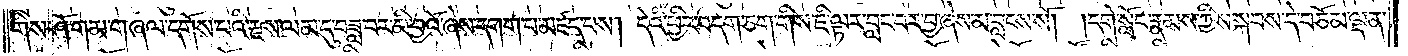གིས་ཤོ་གམ་གཞལ་དགོས་པའི་རྫས་ལམ་དུ་བཟླ་བར་མི་བྱའོ་ཞེས་དགག་པ་མཛད་པས། དེའི་ཕྱིར་བདག་ཅག་གིས་ཇི་ལྟར་བླང་བར་བྱ་ཞེས་མ་བླངས་སོ། །དགེ་སློང་རྣམས་ཀྱིས་སྐབས་དེ་བཅོམ་ལྡན་
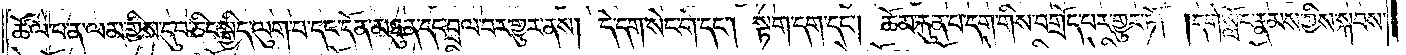ཚོལ་བ་ན་ལམ་གྱིས་དུབ་ཅིང་སྒྱིད་ལུག་པ་དང་དོན་མཐུན་དང་བྲལ་བར་གྱུར་ནས། དེ་དག་སེང་གེ་དང༌། སྟག་དག་དང༌། ཚོམ་རྐུན་པ་དག་གིས་བགྲོད་པར་གྱུར་ཏོ། །དགེ་སློང་རྣམས་ཀྱིས་སྐབས་
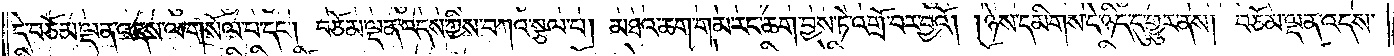དེ་བཅོམ་ལྡན་འདས་ལ་གསོལ་པ་དང༌། བཅོམ་ལྡན་འདས་ཀྱིས་བཀའ་སྩལ་པ། མཐའ་ཆག་གམ་རང་ཆག་བྱས་ཏེ་འགྲོ་བར་བྱའོ། །ཉེས་དམིགས་དེ་ཉིད་དུ་གྱུར་ནས། བཅོམ་ལྡན་འདས་
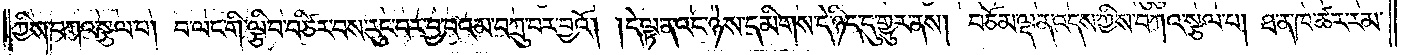ཀྱིས་བཀའ་སྩལ་པ། བ་ལང་གི་ལྕི་བ་བཙིར་བས་རུང་བར་བྱ་བའམ་བཀྲུ་བར་བྱའོ། །དེ་ལྟ་ནའང་ཉེས་དམིགས་དེ་ཉིད་དུ་གྱུར་ནས། བཅོམ་ལྡན་འདས་ཀྱིས་བཀའ་སྩལ་པ། ཐ་ན་ཁ་ཚར་རམ་
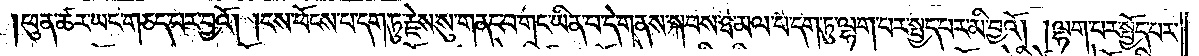ཕུན་ཚར་ཡང་གཅད་པར་བྱའོ། །ངས་ཕོངས་པ་དག་ཏུ་རྗེས་སུ་གནང་བ་གང་ཡིན་པ་དེ་གནས་སྐབས་ཐ་མལ་པ་དག་ཏུ་ལྷག་པར་སྤྱད་པར་མི་བྱའོ། །ལྷག་པར་སྤྱོད་པར་
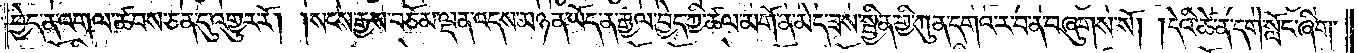ཕྱེད་ན་འགལ་ཚབས་ཅན་དུ་འགྱུར་རོ། །སངས་རྒྱས་བཅོམ་ལྡན་འདས་མཉན་ཡོད་ན་རྒྱལ་བྱེད་ཀྱི་ཚལ་མགོན་མེད་ཟས་སྦྱིན་གྱི་ཀུན་དགའ་ར་བ་ན་བཞུགས་སོ། །དེའི་ཚེ་ན་དགེ་སློང་ཞིག་
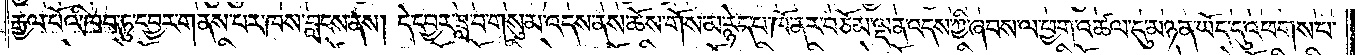རྒྱལ་པོའི་ཁབ་ཏུ་དབྱར་གནས་པར་ཁས་བླངས་ནས། དེ་དབྱར་ཟླ་བ་གསུམ་འདས་ནས་ཆོས་གོས་མ་རྙེད་པ་ཁོ་ནར་བཅོམ་ལྡན་འདས་ཀྱི་ཞབས་ལ་ཕྱག་འཚལ་དུ་མཉན་ཡོད་དུ་འཕགས་པ་
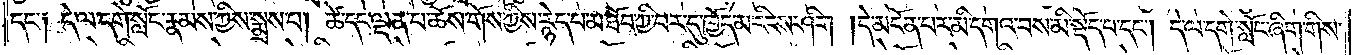དང་༑ དེ་ལ་དགེ་སློང་རྣམས་ཀྱིས་སྨྲས་པ། ཚེ་དང་ལྡན་པ་ཆོས་གོས་ཀྱིས་རྙེད་པ་མ་ཐོབ་ཀྱི་བར་དུ་ཁྱོད་མ་རིངས་ཤིག །དེ་མངོན་པར་མི་དགའ་བས་མི་སྡོད་པ་དང༌། དེ་ལ་དགེ་སློང་ཞིག་གིས་
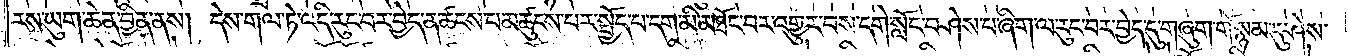རས་ཡུག་ཆེན་བྱིན་ནས། དེས་གལ་ཏེ་འདི་རུང་བར་བྱེད་ན་ཚངས་པ་མཚུངས་པར་སྤྱོད་པ་དག་མི་མཐོང་བར་འགྱུར་བས་དགེ་སློང་བཤེས་པ་ཞིག་ལ་རུང་བར་བྱེད་དུ་གཞུག་གོ་སྙམ་དུ་ཤེས་
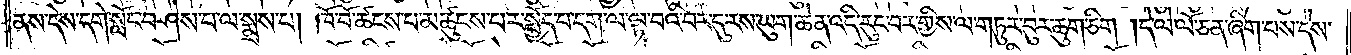ནས་དེས་དགེ་སློང་བཤེས་པ་ལ་སྨྲས་པ། ཁོ་བོ་ཚངས་པ་མཚུངས་པར་སྤྱོད་པ་དག་ལ་ལྟ་བའི་བར་དུ་རས་ཡུག་ཆེན་འདི་རུང་བར་གྱིས་ལ་གཏུར་བུར་ཆུག་ཅིག །དེ་ལེ་ལོ་ཅན་ཞིག་པས་དེས་
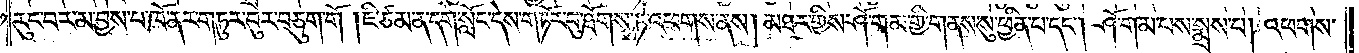རུང་བར་མ་བྱས་པ་ཁོ་ནར་གཏུར་བུར་བཅུག་གོ །ཇི་ཙམ་ན་དགེ་སློང་དེས་གཏོར་བུ་ཐོགས་ཏེ་འཕགས་ནས། མཐར་གྱིས་ཤོ་གམ་གྱི་གནས་སུ་ཕྱིན་པ་དང༌། ཤོ་གམ་པས་སྨྲས་པ། འཕགས་
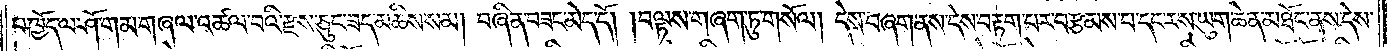པ་ཁྱོད་ལ་ཤོ་གམ་གཞལ་འཚལ་བའི་རྫས་ཅུང་ཟད་མཆིས་སམ། བཞིན་བཟང་མེད་དོ། །བལྟས་གཞག་ཏུ་གསོལ། དེས་བཞག་ནས་དེས་བརྟག་པར་བརྩམས་པ་དང་རས་ཡུག་ཆེན་མཐོང་ནས་དེས་
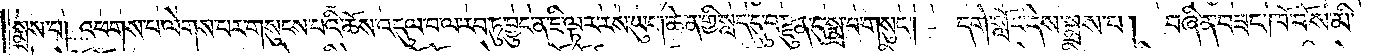སྨྲས་པ། འཕགས་པ་ལེགས་པར་གསུངས་པའི་ཆོས་འདུལ་བ་ལ་རབ་ཏུ་བྱུང་ན་ཇི་ལྟར་རས་ཡུག་ཆེན་གྱི་སླད་དུ་བརྫུན་དུ་སྨྲ་བ་གསུང༌། དགེ་སློང་དེས་སྨྲས་པ། བཞིན་བཟང་ཁོ་བོས་མི་
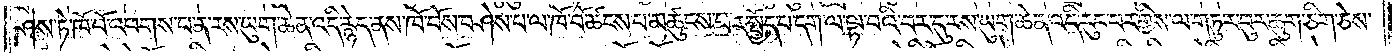ཤེས་ཏེ་ཁོ་བོ་འཕགས་པ་ན་རས་ཡུག་ཆེན་འདི་རྙེད་ནས་ཁོ་བོས་བཤེས་པ་ལ་ཁོ་བོ་ཚངས་པ་མཚུངས་པར་སྤྱོད་པ་དག་ལ་ལྟ་བའི་བར་དུ་རས་ཡུག་ཆེན་འདི་རུང་བར་གྱིས་ལ་གཏུར་བུར་ཆུག་ཅིག་ཅེས་
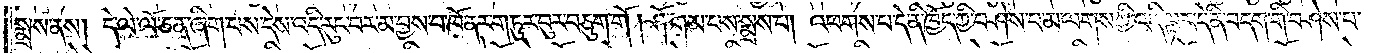སྨྲས་ནས། དེ་ལེ་ལོ་ཅན་ཞིག་པས་དེས་འདི་རུང་བར་མ་བྱས་པ་ཁོ་ནར་གཏུར་བུར་བཅུག་གོ །ཤོ་གམ་པས་སྨྲས་པ། འཕགས་པ་དེ་ནི་ཁྱོད་ཀྱི་བཤེས་པ་མ་ལགས་ཀྱི་འདི་ལྟར་དེ་ནི་བདག་གི་བཤེས་པ་
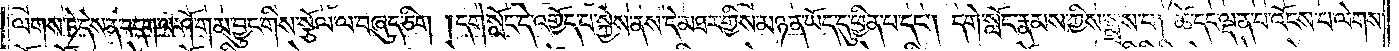ལགས་ཏེ་དེས་ན་བདག་ལ་ཤོ་གམ་བྱུང་གིས་སྩོལ་ལ་བཞུད་ཅིག །དགེ་སློང་དེ་འགྱོད་པ་སྐྱེས་ནས་དེ་མཐར་གྱིས་མཉན་ཡོད་དུ་ཕྱིན་པ་དང༌། དགེ་སློང་རྣམས་ཀྱིས་སྨྲས་པ། ཚེ་དང་ལྡན་པ་འོངས་པ་ལེགས་
